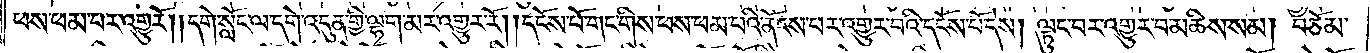ཕས་ཕམ་པར་འགྱུར་རོ། །དགེ་སློང་ལ་དགེ་འདུན་གྱི་ལྷག་མར་འགྱུར་རོ། །དངོས་པོ་གང་གིས་ཕས་ཕམ་པའི་ནོངས་པར་འགྱུར་བའི་དངོས་པོ་དེས། ལྟུང་བར་འགྱུར་བ་མཆིས་སམ། བཅོམ་
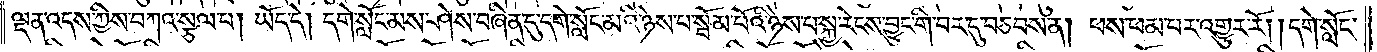ལྡན་འདས་ཀྱིས་བཀའ་སྩལ་པ། ཡོད་དེ། དགེ་སློང་མས་ཤེས་བཞིན་དུ་དགེ་སློང་མའི་ཉེས་པ་སྦོམ་པོའི་ཉེས་པ་སྐྱ་རེངས་བྱུང་གི་བར་དུ་བཅབས་ན། ཕས་ཕམ་པར་འགྱུར་རོ། །དགེ་སློང་
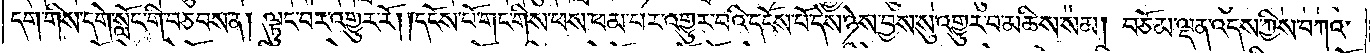དག་གིས་དགེ་སློང་གི་བཅབས་ན། ལྟུང་བར་འགྱུར་རོ། །དངོས་པོ་གང་གིས་ཕས་ཕམ་པར་འགྱུར་བའི་དངོས་པོ་དེས་ཉེས་བྱས་སུ་འགྱུར་བ་མཆིས་སམ། བཅོམ་ལྡན་འདས་ཀྱིས་བཀའ་
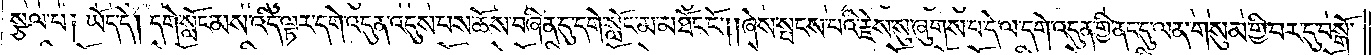སྩལ་པ། ཡོད་དེ། དགེ་སློང་མས་འདི་ལྟར་དགེ་འདུན་འདུས་པས་ཆོས་བཞིན་དུ་དགེ་སློང་མ་མཐོང་ངོ༌། །ཞེས་སྤངས་པའི་རྗེས་སུ་ཞུགས་པ་དེ་ལ་དགེ་འདུན་གྱི་ནང་དུ་ལན་གསུམ་གྱི་བར་དུ་བསྒོ་
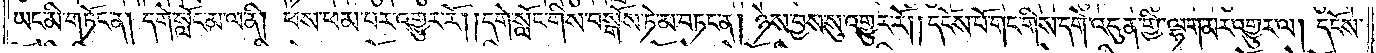ཡང་མི་གཏོང་ན། དགེ་སློང་མ་ལ་ནི། ཕས་ཕམ་པར་འགྱུར་རོ། །དགེ་སློང་གིས་བསྒོས་ཏེ་མ་བཏང་ན། ཉེས་བྱས་སུ་འགྱུར་རོ། །དངོས་པོ་གང་གིས་དགེ་འདུན་གྱི་ལྷག་མར་འགྱུར་ལ། དངོས་
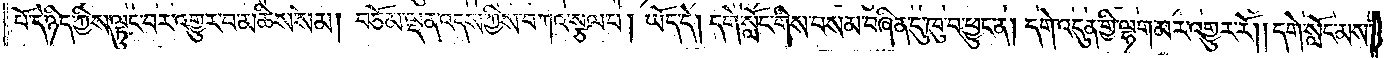པོ་དེ་ཉིད་ཀྱིས་ལྟུང་བར་འགྱུར་བ་མཆིས་སམ། བཅོམ་ལྡན་འདས་ཀྱིས་བཀའ་སྩལ་པ། ཡོད་དེ། དགེ་སློང་གིས་བསམ་བཞིན་དུ་ཁུ་བ་ཕྱུང་ན། དགེ་འདུན་གྱི་ལྷག་མར་འགྱུར་རོ། །དགེ་སློང་མས་
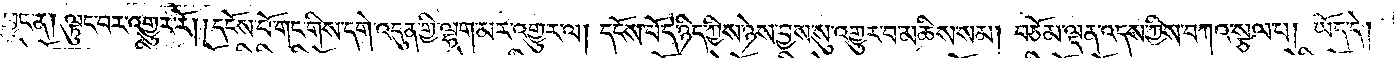ཕྱུང་ན། ལྟུང་བར་འགྱུར་རོ། །དངོས་པོ་གང་གིས་དགེ་འདུན་གྱི་ལྷག་མར་འགྱུར་ལ། དངོས་པོ་དེ་ཉིད་ཀྱིས་ཉེས་བྱས་སུ་འགྱུར་བ་མཆིས་སམ། བཅོམ་ལྡན་འདས་ཀྱིས་བཀའ་སྩལ་པ། ཡོད་དེ།
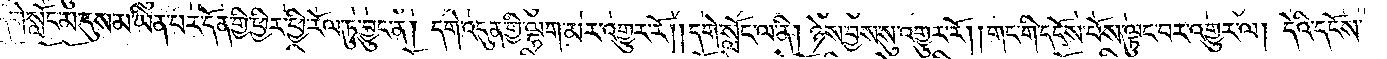དགེ་སློང་མ་དུས་མ་ཡིན་པར་དོན་གྱི་ཕྱིར་ཕྱི་རོལ་ཏུ་བྱུང་ན། དགེ་འདུན་གྱི་ལྷག་མར་འགྱུར་རོ། །དགེ་སློང་ལ་ནི། ཉེས་བྱས་སུ་འགྱུར་རོ། །གང་གི་དངོས་པོས་ལྟུང་བར་འགྱུར་ལ། དེའི་དངོས་
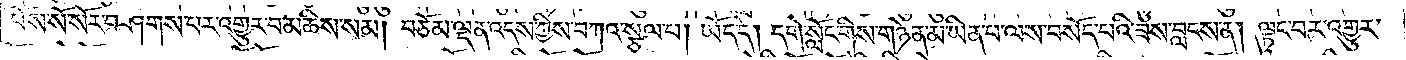པོས་སོ་སོར་བཤགས་པར་འགྱུར་བ་མཆིས་སམ། བཅོམ་ལྡན་འདས་ཀྱིས་བཀའ་སྩལ་པ། ཡོད་དེ། དགེ་སློང་གིས་གཉེན་མ་ཡིན་པ་ལས་བསོད་པའི་ཟས་བླངས་ན། ལྟུང་བར་འགྱུར་
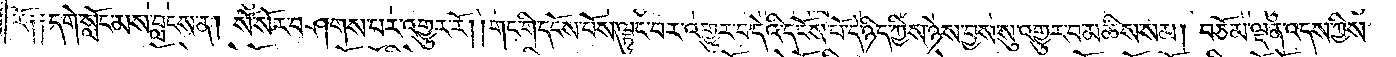རོ༑ ༑དགེ་སློང་མས་བླངས་ན། སོ་སོར་བཤགས་པར་འགྱུར་རོ། །གང་གི་དངོས་པོས་ལྟུང་བར་འགྱུར་བ་དེའི་དངོས་པོ་དེ་ཉིད་ཀྱིས་ཉེས་བྱས་སུ་འགྱུར་བ་མཆིས་སམ། བཅོམ་ལྡན་འདས་ཀྱིས་
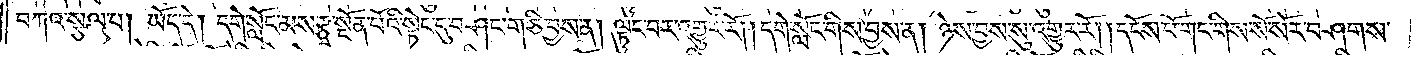བཀའ་སྩལ་པ། ཡོད་དེ། དགེ་སློང་མས་རྩྭ་སྔོན་པོའི་སྟེང་དུ་བཤང་གཅི་བྱས་ན། ལྟུང་བར་འགྱུར་རོ། །དགེ་སློང་གིས་བྱས་ན། ཉེས་བྱས་སུ་འགྱུར་རོ། །དངོས་པོ་གང་གིས་སོ་སོར་བཤགས་
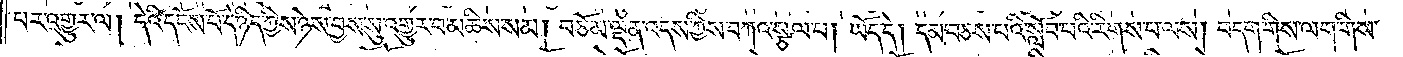པར་འགྱུར་ལ། དེའི་དངོས་པོ་དེ་ཉིད་ཀྱིས་ཉེས་བྱས་སུ་འགྱུར་བ་མཆིས་སམ། བཅོམ་ལྡན་འདས་ཀྱིས་བཀའ་སྩལ་པ། ཡོད་དེ། དམ་བཅས་པའི་སློབ་པའི་རིགས་པ་ལས། བདག་གིས་ལག་གིས་
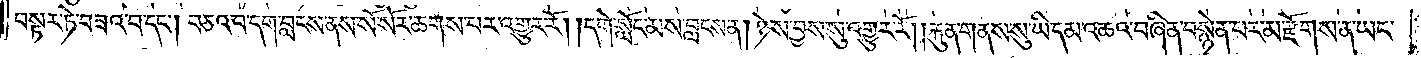བསྟར་ཏེ་བཟའ་བ་དང༌། བཅའ་བ་དག་བླངས་ནས་སོ་སོར་ཆགས་པར་འགྱུར་རོ། །དགེ་སློང་མས་བླངས་ན། ཉེས་བྱས་སུ་འགྱུར་རོ། །རྐུན་གནས་སུ་ཡི་དམ་འཆའ་བཞིན་བསྙེན་པར་མ་རྫོགས་ན་ཡང་
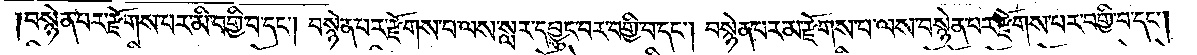བསྙེན་པར་རྫོགས་པར་མི་བགྱི་བ་དང༌། བསྙེན་པར་རྫོགས་པ་ལས་སླར་དབྱུང་བར་བགྱི་བ་དང༌། བསྙེན་པར་མ་རྫོགས་པ་ལས་བསྙེན་པར་རྫོགས་པར་བགྱི་བ་དང༌།
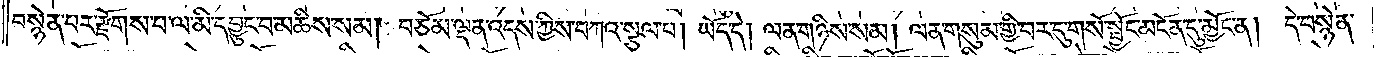བསྙེན་པར་རྫོགས་པ་ལ་མི་དབྱུང་བ་མཆིས་སམ། བཅོམ་ལྡན་འདས་ཀྱིས་བཀའ་སྩལ་པ། ཡོད་དེ། ལན་གཉིས་སམ། ལན་གསུམ་གྱི་བར་དུ་གསོ་སྦྱོང་མངོན་དུ་མྱོང་ན། དེ་བསྙེན་
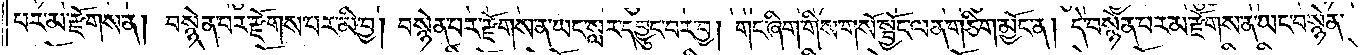པར་མ་རྫོགས་ན། བསྙེན་པར་རྫོགས་པར་མི་བྱ། བསྙེན་པར་རྫོགས་ན་ཡང་སླར་དབྱུང་བར་བྱ། གང་ཞིག་གིས་གསོ་སྦྱོང་ལན་གཅིག་མྱོང་ན། དེ་བསྙེན་པར་མ་རྫོགས་ན་ཡང་བསྙེན་
